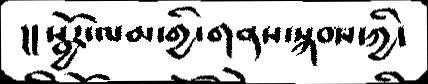།།སྦྱོར་ལམ་གྱི་གནས་སྐབས་ཀྱི་
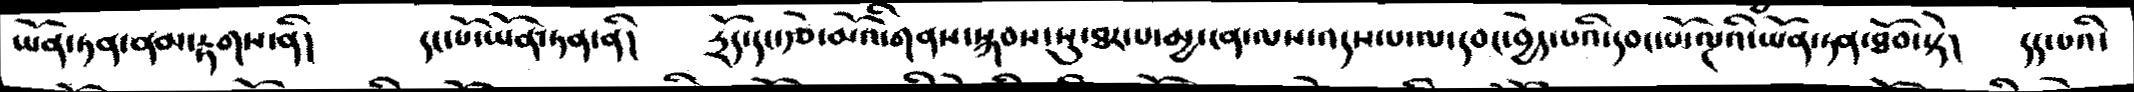ཡོན་ཏན་ནམ་རྟགས་ནི།     དང་པོ་ཡོན་ཏན་ནི།     དྲོད་དང་རྩེ་མོའི་གནས་སྐབས་སུ་ཐར་པ་མྱ་ངན་ལས་འདས་པ་ལ་དབང་བྱེད་པའི་དབང་པོ་ལྔའི་ཡོན་ཏན་ཐོབ་སྟེ།   དད་པའི་
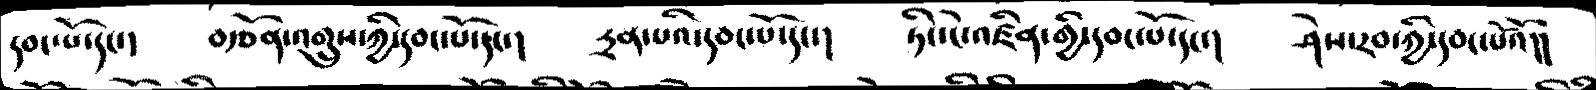དབང་པོ་དང་།     བརྩོན་འགྲུས་ཀྱི་དབང་པོ་དང་།      དྲན་པའི་དབང་པོ་དང་།     ཏིང་ངེ་འཛིན་གྱི་དབང་པོ་དང་།     ཤེས་རབ་ཀྱི་དབང་པོའོ།།
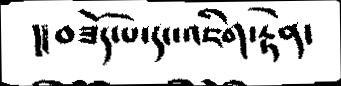།།བཟོད་པ་དང་འཇིག་རྟེན་
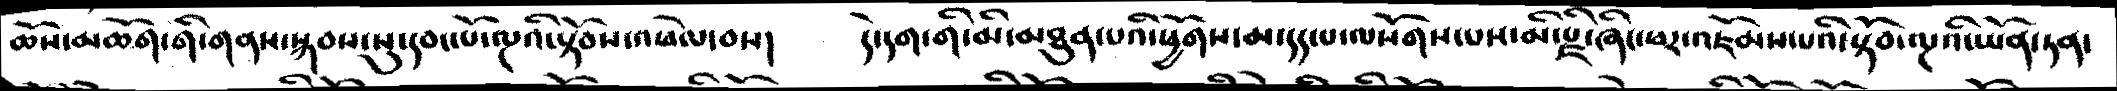ཆོས་མཆོག་གི་གནས་སྐབས་སུ་དབང་པོ་ལྔའི་སྟོབས་འཕེལ་བས།       དེ་དག་གི་མི་མཐུན་པའི་ཕྱོགས་མ་དད་པ་ལསོགས་པས་མི་རྫི་ཞིང་ཕར་འཇོམས་པའི་སྟོབས་ལྔའི་ཡོན་ཏན་
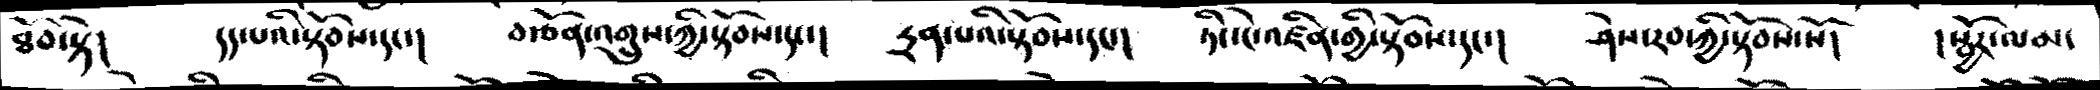ཐོབ་སྟེ།     དད་པའི་སྟོབས་དང་།    བརྩོན་འགྲུས་ཀྱི་སྟོབས་དང་།      དྲན་པའི་སྟོབས་དང་།    ཏིང་ངེ་འཛིན་གྱི་སྟོབས་དང་།      ཤེས་རབ་ཀྱི་སྟོབས་སོ།     །སྦྱོར་ལམ་
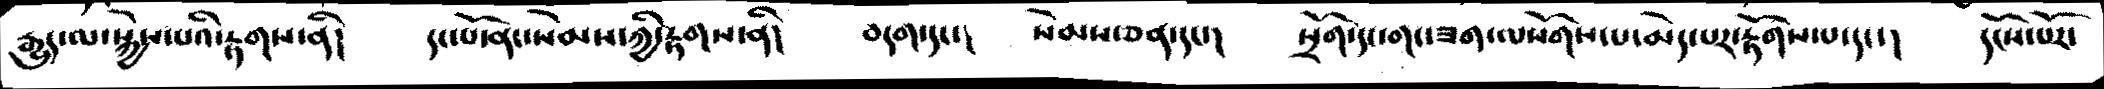རྒྱུད་ལ་སྐྱེས་པའི་རྟགས་ནི།     དང་པོ་ནང་སེམས་ཀྱི་རྟགས་ནི།      བདག་དང་།      སེམས་ཅན་དང་།     སྲོག་དང་གང་ཟག་ལསོགས་པ་མེད་པར་རྟོགས་པ་དང་།    དངོས་པོར་
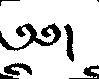༄༅།
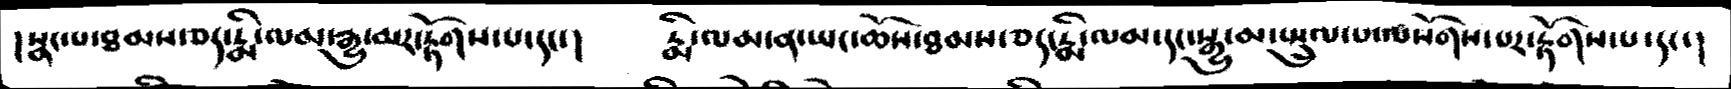།སྣང་པ་ཐམས་ཅད་རྨི་ལམ་རྒྱུ་མར་རྟོགས་པ་དང་།     རྨི་ལམ་ན་ཡང་ཆོས་ཐམས་ཅད་རྨི་ལམ་དང་སྒྱུ་མ་སྤྲུལ་པ་ལསོགས་པར་རྟོགས་པ་དང་།
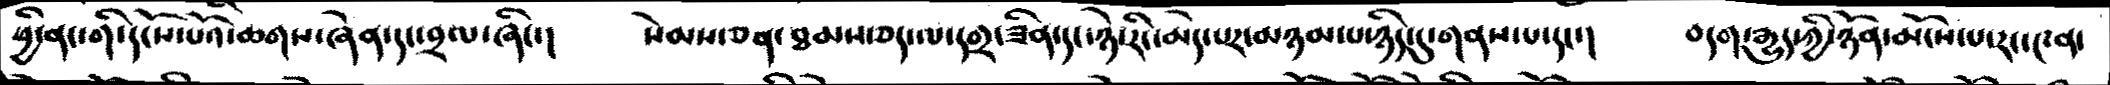ཕྱི་ནང་གི་དངོས་པོའི་ཆགས་ཞེན་དང་བྲལ་ཞིང་།     སེམས་ཅན་ཐམས་ཅད་ལ་དགྲ་ཟིན་དང་ཉེ་རིང་མེད་པར་མཉམ་པ་ཉིད་དུ་གནས་པ་དང་།     བདག་རྒྱུད་ཀྱི་ཉོན་མོངས་པ་རང་༤ན་
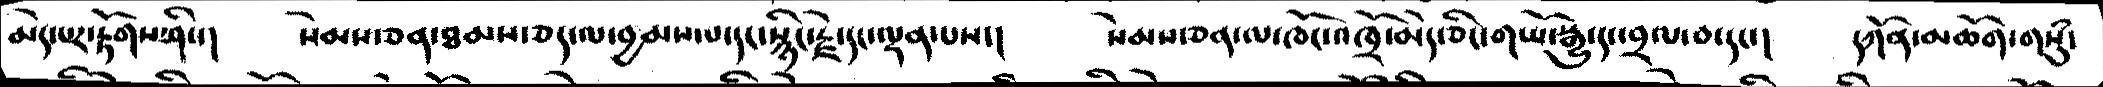མེད་པར་རྟོགས་ཤིང་།    སེམས་ཅན་ཐམས་ཅད་ལ་བྱམས་པ་དང་སྙིང་རྗེ་དང་ལྡན་པས་།      སེམས་ཅན་ལ་ཁོང་འཁྲོ་མེད་ཅིང་གཡོ་སྒྱུ་དང་བྲལ་བ་དང་།     དཀོན་མཆོག་གསུཾ་
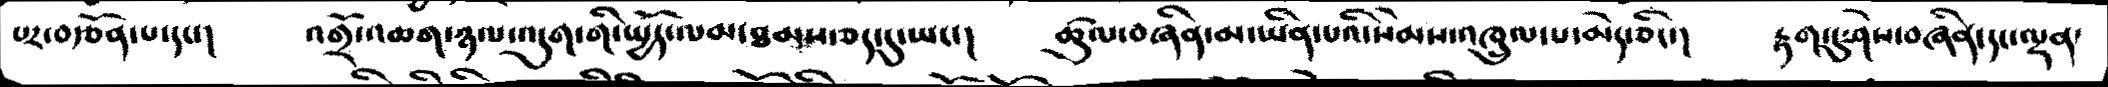པར་བརྩོན་པ་དང་།    འགྲོ་འཆག་ཉལ་འདུག་གི་སྤྱོད་ལམ་ཐམས་ཅད་དུ་ཡང་།    ཚུལ་བཞིན་མ་ཡིན་པའི་སེམས་འཁྲུལ་པ་མེད་ཅིང་།      རྟག་དུ་ཤེས་བཞིན་དང་ལྡན་
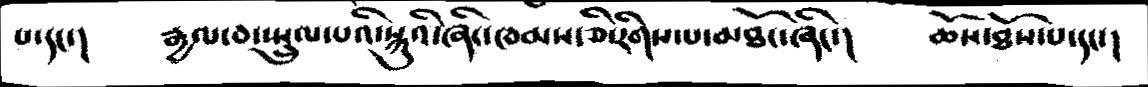པ་དང་།     རྒྱལ་བ་སྤྲུལ་པའི་སྐུའི་ཞིང་ཁམས་ཅི་རིགས་པ་མཐོང་ཞིང་།      ཆོས་ཐོས་པ་དང་།
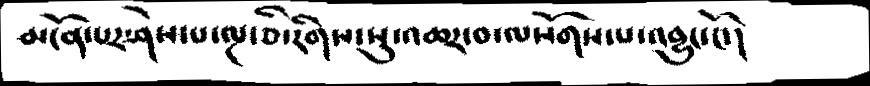མངོན་པར་ཤེས་པ་ལྔ་ཅི་རིགས་སུ་འཆར་བ་ལསོགས་པ་འབྱུང་ངོ་།
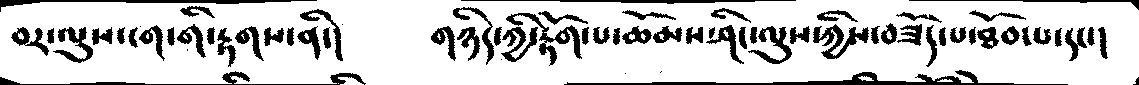བར་ལུས་ངག་གི་རྟགས་ནི་།     གཉིད་ཀྱི་རྟོག་པ་ཆོམས་ཤིང་ལུས་ཀྱིས་བཟོད་པ་ཐོབ་པ་དང་།
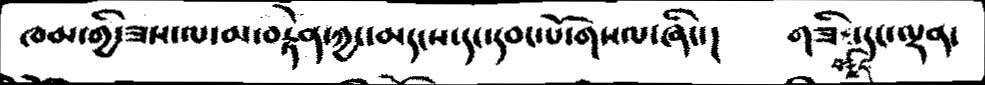ཁམ་གྱི་ཟས་ལ་མ་བརྟེན་ཀྱང་མདངས་དང་དབང་པོ་གསལ་ཞིང་།      གཟི་བརྗིད་དང་ལྡན་
